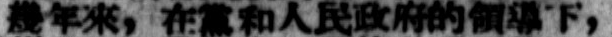幾年來，在黨和人民政府的領導下，
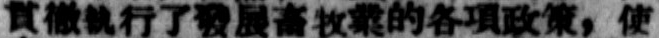貫徹執行了發展畜牧業的各項政策，使
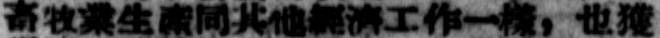畜牧業生產同其他經濟工作一樣，也獲
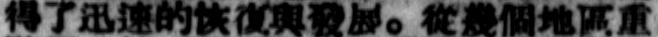得了迅速的恢復與發展。在幾個地區重
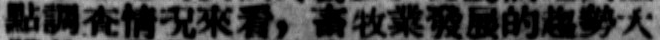點調查情況來看，畜牧業發展的趨勢大
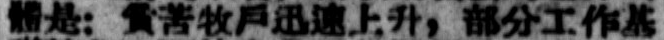體是：貧苦牧戶迅速上升，部分工作基
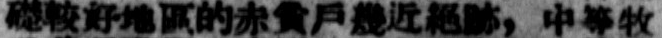礎較好地區的赤貧戶幾近絕跡，中等牧
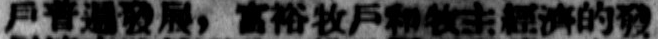戶普遍發展，富裕牧戶和牧主經濟的發
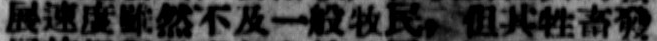展速度雖然不及一般牧民，但其牲畜發
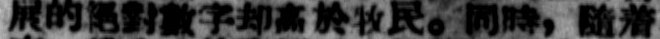展的絕對數字却高於牧民。同時，隨着
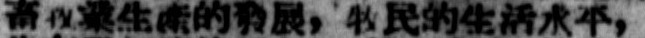畜牧業生產的發展，牧民的生活水平，
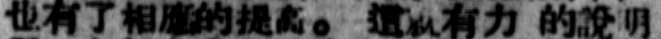也有了相應的提高。這更更有力 的說明
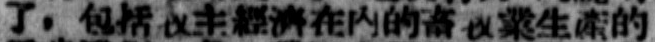了，包括牧主經濟在內的畜牧業生產的
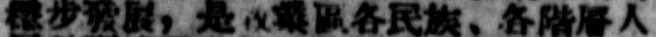逐步發展，是牧業區各民族、各階層人
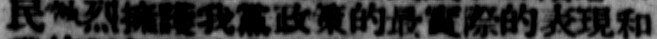民熱烈擁護我黨政策的最實際的表現和
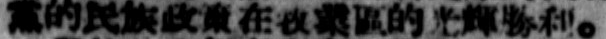黨的民族政策在牧業區的光輝勝利。
